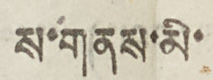ས་གནས་མི་
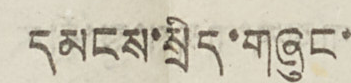དམངས་སྲིད་གཞུང་
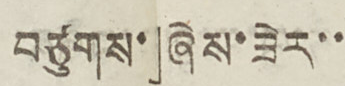བཙུགས་」ཞེས་ཟེར་་
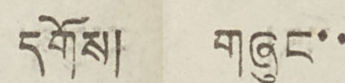དགོས། གཞུང་་
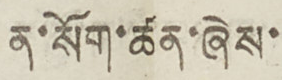ན་སོག་ཚན་ཞེས་
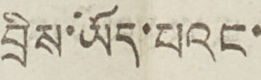བྲིས་ཡོད་པའང་
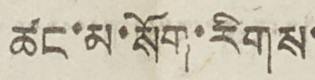ཚང་མ་སོག་རིགས་
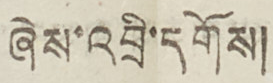ཞེས་འབྲི་དགོས།
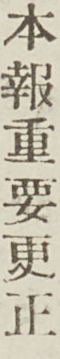本報重要更正
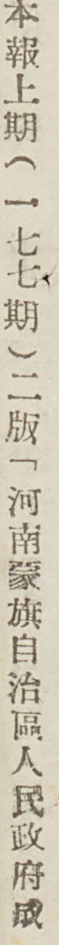本報上期（一七七期）二版「河南蒙旗自治區人民政府成
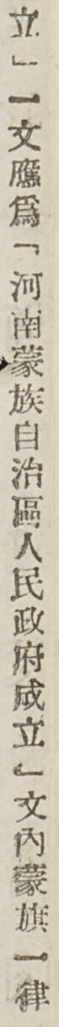立」一文應爲「河南蒙族自治區人民政府成立」文內蒙旗一律
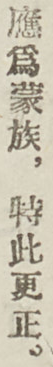應爲蒙族，特此更正。
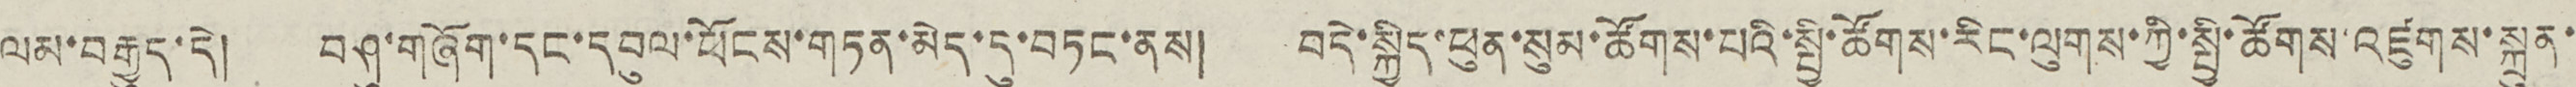ལམ་བརྒྱུད་དེ། བཤུ་གཞོག་དནག་དབུལ་ཕོངས་གཏན་མེད་དུ་བཏང་ནས། བདེ་སྐྱིད་ཕུན་སུམ་ཚོགས་པའི་སྤྱི་ཚོགས་རིང་ལུགས་ཀྱི་སྤྱི་ཚོགས་འཛུགས་སྐྲུན་
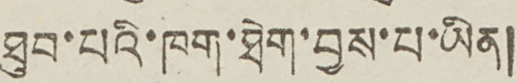ཐུབ་པའི་ཁག་ཐེག་བྱས་པ་ཡིན།
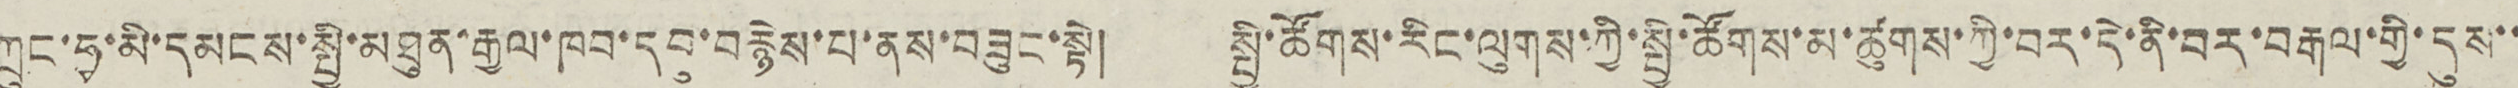ཀྲུང་ཧྭ་མི་དམངས་སྤྱི་མཐུན་རྒྱལ་ཁབ་དབུ་བརྙེས་པ་ནས་བཟུང་སྟེ། སྤྱི་ཚོགས་རིང་ལུགས་ཀྱི་སྤྱི་ཚོགས་མ་ཚུགས་ཀྱི་བར་དེ་ནི་བར་བརྒལ་གྱི་དུས་་
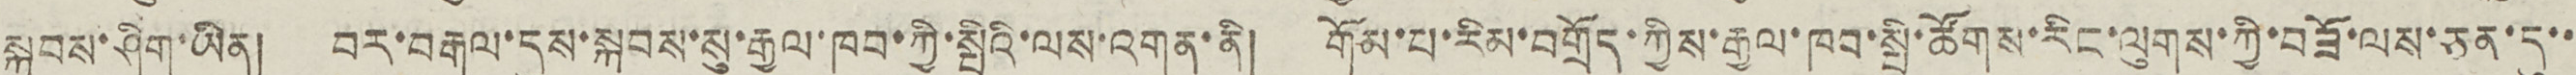སྐབས་ཤིག་ཡིན། བར་བརྒལ་དུས་སྐབས་རྒྱལ་ཁབ་ཀྱི་སྤྱིའི་ལས་འགན་ནི། གོམ་པ་རིམ་བགྲོད་ཀྱིས་རྒྱལ་ཁབ་སྤྱི་ཚོགས་རིང་ལུགས་ཀྱི་བཟོ་ལས་ཅན་དུ་་
